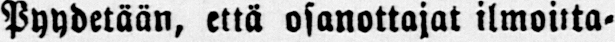Pyydetään, että osanottajat ilmoitta-
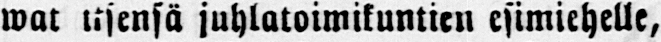wat itsensä juhlatoimikuntien esimiehelle,
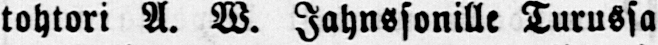tohtori A. W. Jahnssonille Turussa
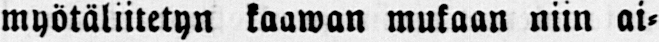myötäliitetyn kaawan mukaan niin ai-
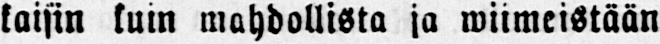kaisin kuin mahdollista ja wiimeistään
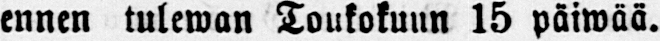ennen tulewan Toukokuun 15 päiwää.
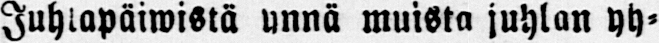Juhlapäiwistä ynnä muista juhlan yh-
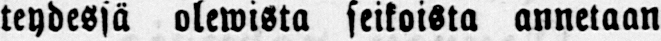teydessä olewista seikoista annetaan
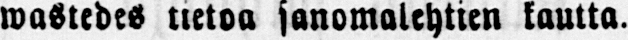wastedes tietoa sanomalehtien kautta.
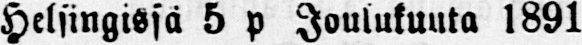Helsingissä 5 p Joulukuuta 1891.
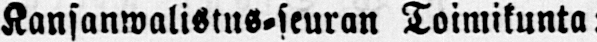Kansanwalistus-seuran Toimikunta:
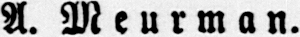A. Meurman.
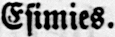Esimies.
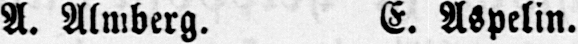A. Almberg. E. Aspelin.
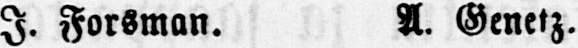I. Forsman. A. Genetz.
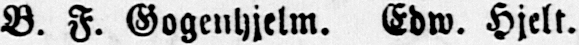B. F. Gogenhjelm. Edw. Hjelt.
